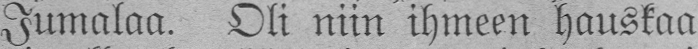Jumalaa. Oli niin ihmeen hauskaa
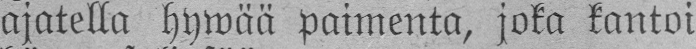ajatella hywää paimenta, joka kantoi
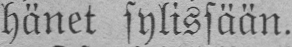hänet sylissään.
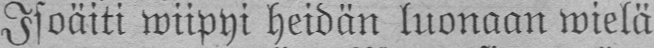Isoäiti wiipyi heidän luonaan wielä
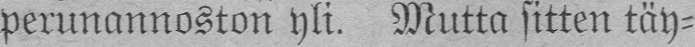perunannoston yli. Mutta sitten täy-
